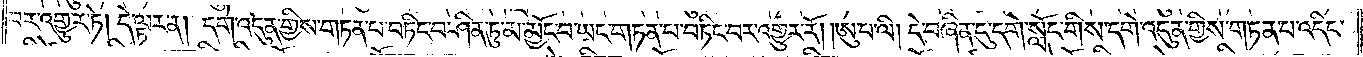བར་འགྱུར་ཏེ། དེ་ལྟར་ན། དགེ་འདུན་གྱིས་གཏན་པ་བཏིང་བ་ཤིན་ཏུ་མ་མྱོང་བ་ཡང་གཏན་པ་བཏིང་བར་འགྱུར་རོ། ཨུ་པ་ལི། དེ་བཞིན་དུ་དགེ་སློང་གིས་དགེ་འདུན་གྱིས་གཏན་པ་འདིང་
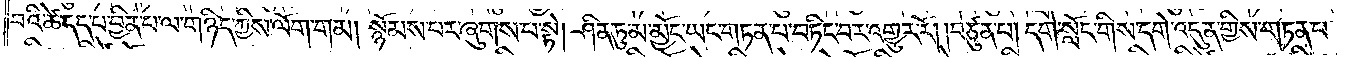བའི་ཚེ་དད་པ་བྱིན་པ་ལ་གཉིད་ཀྱིས་ལོག་གམ། སྙོམས་པར་ཞུགས་པ་སྟེ། ཤིན་ཏུ་མ་མྱོང་ཡང་གཏན་པ་བཏིང་བར་འགྱུར་རོ། །བཙུན་པ། དགེ་སློང་གིས་དགེ་འདུན་གྱིས་གཏན་པ་
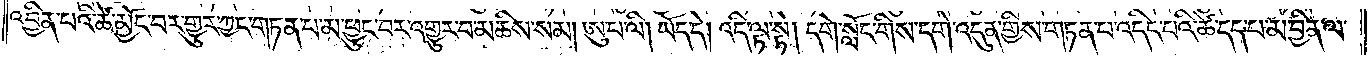འབྱིན་པའི་ཚེ་མྱོང་བར་གྱུར་ཀྱང་གཏན་པ་མ་ཕྱུང་བར་འགྱུར་བ་མཆིས་སམ། ཨུ་པ་ལི། ཡོད་དེ། འདི་ལྟ་སྟེ། དགེ་སློང་གིས་དགེ་འདུན་གྱིས་གཏན་པ་འདིང་པའི་ཚེ་དད་པ་མ་བྱིན་ལ་
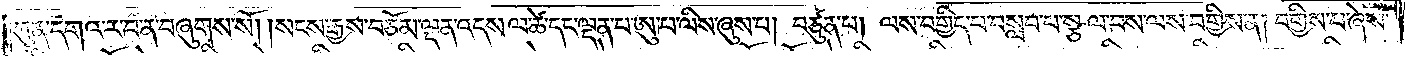ཀུན་དགའ་ར་བ་ན་བཞུགས་སོ། །སངས་རྒྱས་བཅོམ་ལྡན་འདས་ལ་ཚེ་དང་ལྡན་པ་ཨུ་པ་ལིས་ཞུས་པ། བཙུན་པ། ལས་བགྱིད་པ་བསླབ་པ་སྩལ་བས་ལས་བགྱིས་ན། བགྱིས་པ་ཞེས་
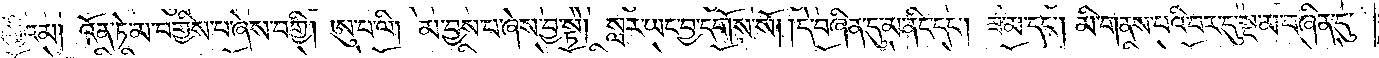བགྱིའམ། འོན་ཏེ་མ་བགྱིས་པ་ཞེས་བགྱི། ཨུ་པ་ལི། མ་བྱས་པ་ཞེས་བྱ་སྟེ། སླར་ཡང་བྱ་དགོས་སོ། །དེ་བཞིན་དུ་མ་ནིང་དང༌། ཟ་མ་དང༌། མི་གནས་པའི་བར་དུ་སྔ་མ་བཞིན་དུ་
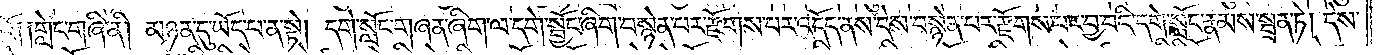བྱའོ༑ ༑གླེང་གཞི་ནི། མཉན་དུ་ཡོད་པ་ན་སྟེ། དགེ་སློང་གཞན་ཞིག་ལ་དགེ་སྦྱོང་ཞིག་བསྙེན་པར་རྫོགས་པར་འདོད་ནས་དེས་བསྙེན་པར་རྫོགས་པར་བྱ་བའི་དགེ་སློང་རྣམས་སྦྲན་ཏེ། དེས་
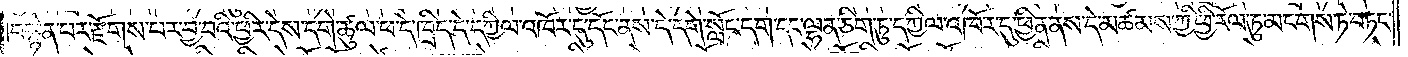བསྙེན་པར་རྫོགས་པར་བྱ་བའི་ཕྱིར་དེས་དགེ་ཚུལ་ཕ་དེ་ཁྲིད་དེ་དཀྱིལ་འཁོར་དུ་དོང་ནས་དེ་དགེ་སློང་དག་དང་ལྷན་ཅིག་ཏུ་དཀྱིལ་འཁོར་དུ་ཕྱིན་ནས་དེ་མཚམས་ཀྱི་ཕྱི་རོལ་ཏུ་མངགས་ཏེ་བཏང་
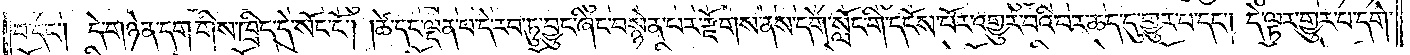བ་དང༌། དེ་གཉེན་དག་གིས་ཁྲིད་དེ་སོང་ངོ༌། །ཚེ་དང་ལྡན་པ་དེ་རབ་ཏུ་བྱུང་ཞིང་བསྙེན་པར་རྫོགས་ནས་དགེ་སློང་གི་དངོས་པོར་འགྱུར་བའི་བར་ཆད་དུ་གྱུར་པ་དང༌། དེ་ལྟར་གྱུར་པ་དགེ་
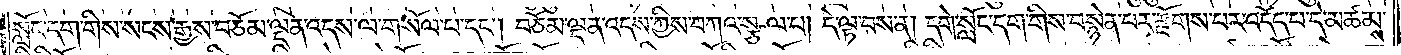སློང་དག་གིས་སངས་རྒྱས་བཅོམ་ལྡན་འདས་ལ་གསོལ་པ་དང༌། བཅོམ་ལྡན་འདས་ཀྱིས་བཀའ་སྩལ་པ། དེ་ལྟ་བས་ན། དགེ་སློང་དག་གིས་བསྙེན་པར་རྫོགས་པར་འདོད་པ་དེ་མཚམས་
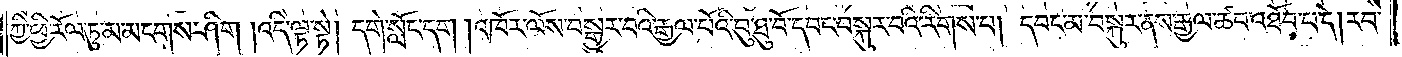ཀྱི་ཕྱི་རོལ་ཏུ་མ་མངགས་ཤིག །འདི་ལྟ་སྟེ། དགེ་སློང་དག །འཁོར་ལོས་བསྒྱུར་བའི་རྒྱལ་པོའི་བུ་ཐུ་བོ་དབང་བསྐུར་བའི་རིགས་པ། དབང་མ་བསྐུར་ནས་རྒྱལ་ཚབ་འཐོབ་པ་དེ། རབ་
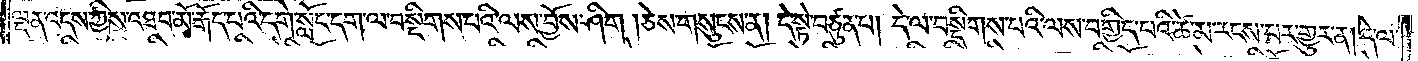ལྡན་འདས་ཀྱིས་འཐབ་མོ་རྒོད་པའི་དགེ་སློང་དག་ལ་བསྡིགས་པའི་ལས་བྱོས་ཤིག །ཅེས་གསུངས་ན། དེ་སྟེ་བཙུན་པ། དེ་ལ་བསྡིགས་པའི་ལས་བགྱིད་པའི་ཚེ་མ་རངས་པར་གྱུར་ན། དེ་ལ་
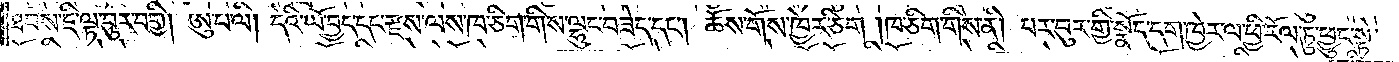ཐབས་ཇི་ལྟ་བུར་བགྱི། ཨུ་པ་ལི། དེའི་ཡོ་བྱད་དང་རྫས་ལས་ཁ་ཅིག་གིས་ལྷུང་བཟེད་དང༌། ཆོས་གོས་ཁྱེར་ཅིག །ཁ་ཅིག་གིས་ནི། པར་བུར་གྱི་སྣོད་དག་ཁྱེར་ལ་ཕྱི་རོལ་ཏུ་ཕྱུང་སྟེ་
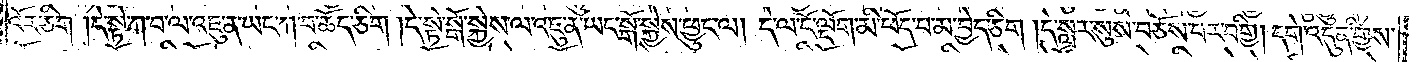འོར་ཅིག །དེ་སྟེ་ཀ་བ་ལ་འཇུ་ན་ཡང་ཀ་བ་ཆོད་ཅིག །དེ་སྟེ་སྒོ་སྐྱེས་ལ་འཇུ་ན་ཡང་སྒོ་སྐྱེས་ཕྱུང་ལ། དེ་ལ་ངོ་ལྡོག་མི་ཕོད་པ་མ་བྱེད་ཅིག །དེ་སླར་སུས་བཅོས་པར་བགྱི། དགེ་འདུན་གྱིས་
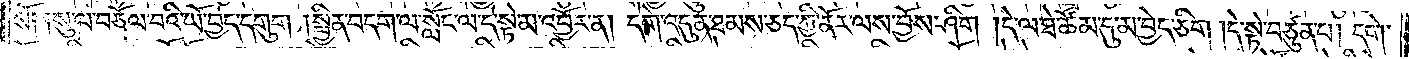སོ༑ ༑སུ་ལ་བཅོལ་བའི་ཡོ་བྱད་དགུག །སྦྱིན་བདག་ལ་སློང་ལ་དེ་སྟེ་མ་འབྱོར་ན། དགེ་འདུན་ཐམས་ཅད་ཀྱི་ནོར་ལས་བྱོས་ཤིག །དེ་ལ་ཐེ་ཚོམ་དུ་མ་བྱེད་ཅིག །དེ་སྟེ་བཙུན་པ། དགེ་
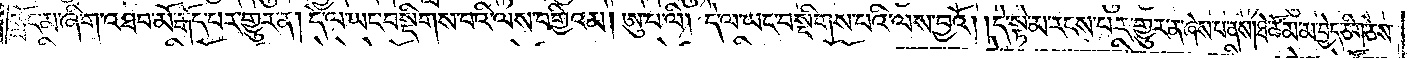སློང་མ་ཞིག་འཐབ་མོ་རྒོད་པར་གྱུར་ན། དེ་ལ་ཡང་བསྡིགས་པའི་ལས་བགྱིའམ། ཨུ་པ་ལི། དེ་ལ་ཡང་བསྡིགས་པའི་ལས་བྱའོ། །དེ་སྟེ་མ་རངས་པར་གྱུར་ན་ཞེས་པ་ནས། ཐེ་ཚོམ་མ་བྱེད་ཅིག་ཅེས་
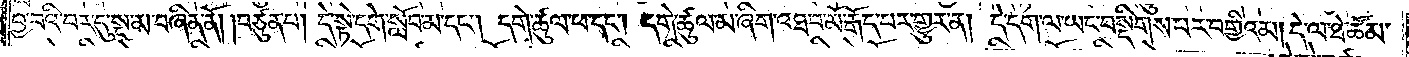བྱ་བའི་བར་དུ་སྔ་མ་བཞིན་ནོ། །བཙུན་པ། དེ་སྟེ་དགེ་སློབ་མ་དང༌། དགེ་ཚུལ་ཕ་དང༌། དགེ་ཚུལ་མ་ཞིག་འཐབ་མོ་རྒོད་པར་གྱུར་ན། དེ་དག་ལ་ཡང་བསྡིགས་པར་བགྱིའམ། དེ་ལ་ཐེ་ཚོམ་
